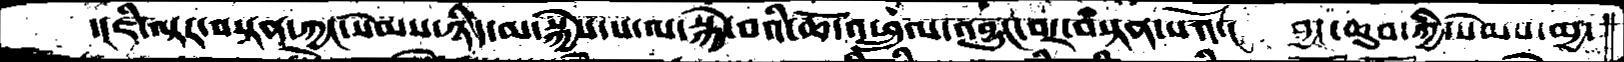་།ཇི་ལྟྱར་བསྟན་ཀྱང་སེམས་ཉིད་མ་སྐྱེས་པ་ལ་སྐྱེ་བའི་ཆོ་འཕྲུལ་འབྱུང་བར་བསྟན་པའོ་།  བྱང་ཆུབ་ཀྱི་སེམས་མྱ་
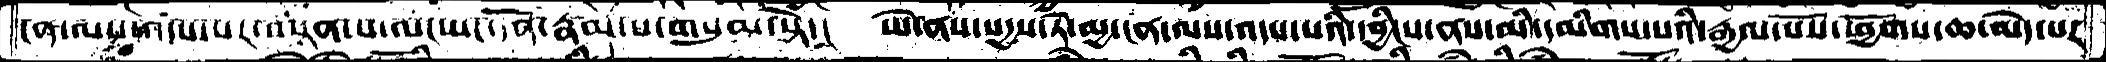ངན་ལས་འདས་པར་བསྟན་པ་ལ་ཡང་དོན་རྣམ་པ་གསུམ་སྟེ་།  ཡེ་ནས་སདྱས་ཏེ་མྱ་ངན་ལས་འདས་པའི་དབྱིངས་ནས་མི་དམིགས་པའི་རྒྱལ་པོས་ཕྱོགས་ཆ་མེད་པར་
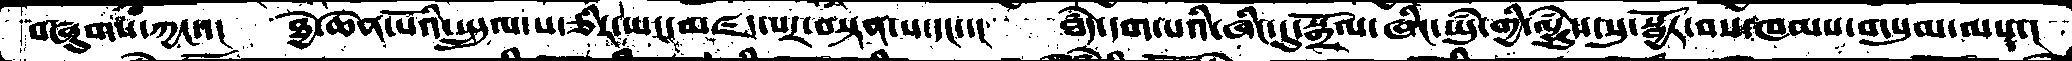བཞུགས་ཀྱང་་།  ཐྱེ་ཆེན་པོའི་སྤྲུལ་པ་ཅིར་ཡང་མཛད་པར་བསྟན་པ་དང་་།  ཐཾད་དག་པའི་ཞིང་དུ་སྒྲོལ་ཞིང་ཡུཾ་གྱི་ལྷུཾས་སུ་སྦྱོར་བས་ཁམས་གསུམ་ལས་།
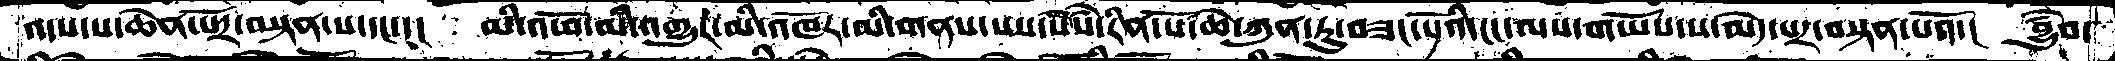འདས་པ་ཆེན་པོར་བསྟན་པ་དང་་།  མི་འཕོ་མི་འགྱུར་མི་འཁོར་མི་གནས་པས་སེཾས་རིན་པོ་ཆེ་ཀུན་ཏུ་བཟང་པོའི་ངང་ལས་གཡོས་པ་མེད་པར་བསྟན་པའོ་།  བྱུཾབ་
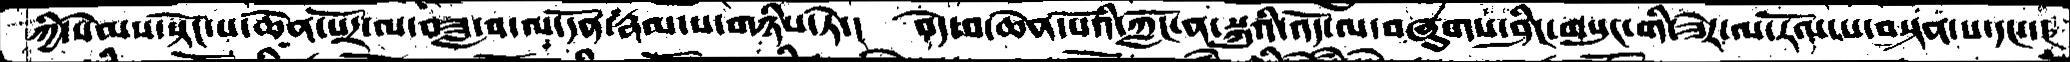ཀྱི་སེམས་སྟོང་པ་ཆེན་པོར་ལ་བཟླ་བ་ལ་དོན་རྣམ་པ་གཉིས་ཏེ་།  བདེ་བ་ཆེན་པའི་ཀློང་ན་སྐུའི་འོད་ལ་བཞུགས་ཤིང་གསུང་གི་ཟེར་ལ་རོལ་པ་བསྟན་པ་དང་་།
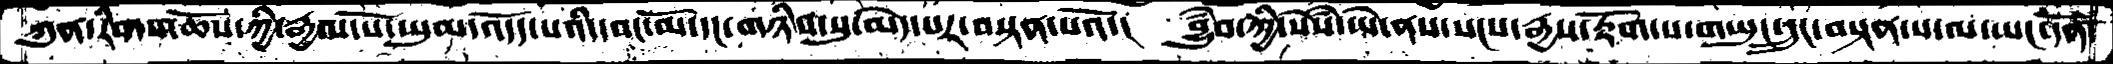ཀུན་རིགས་ཆོས་ཀྱི་རྒྱལ་པོ་ཡུམ་འདོད་པའི་དབང་མོ་དང་གཉིས་སུ་མེད་པར་བསྟན་པའོ་།  བྱུཾབ་ཀྱི་སེཾས་ཡེ་ནས་སངས་རྒྱས་རྟོག་པ་གཡུང་དྲུང་བསྟན་པ་ལ་ཡང་དོན་
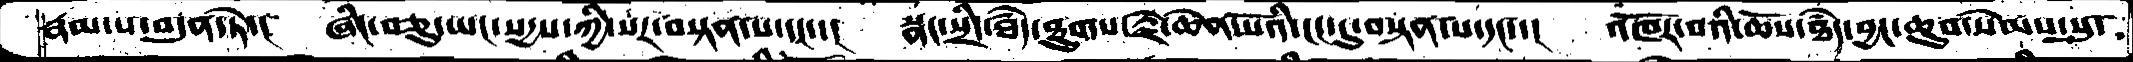རྣམ་པ་བདུན་ཏེ་།  ཞིང་བཅུ་ཡང་སདྱས་ཀྱི་སར་བསྟན་པ་དང་་།  སྣང་སྲིད་ཐཾད་ཐུགས་རྗེ་ཆེན་པོའི་ངང་དུ་བསྟན་པ་དང་་།  འཁོར་བའི་ཆོས་ཐཾད་བྱང་ཆུབ་སེམས་སུ་
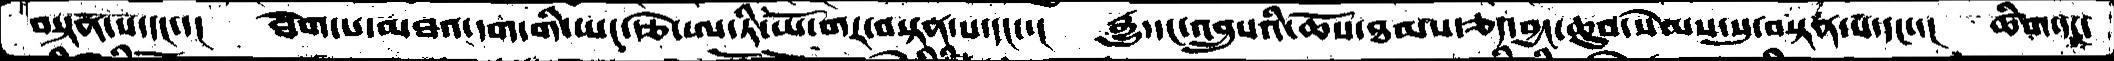བསྟན་པདང་།  ཐེག་པ་མཐའ་དག་གི་ཡང་རྩེ་ཨ་ཏི་ཡོ་གར་བསྟན་པ་དང་་།  རྒྱུ་དང་འབྲུསའི་ཆོས་ཐམས་ཅད་བྱང་ཆུབ་སེམས་སུ་བསྟན་པ་དང་་།  ཚིག་དང་
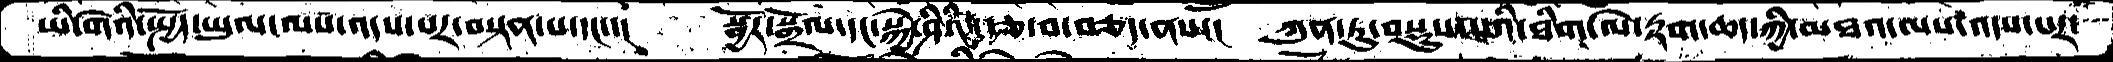ཡི་གེའི་སྤྱོད་ཡུལ་ལས་འདས་པར་བསྟན་པ་དང་་།  སྦྱོར་སྒྲོལ་དང་སྐྱེ་ཤིའི་རྩ་བ་བཅད་ནས་།  ཀུན་་ཏུ་བསྡུས་པའི་ཐིག་ལེ་རྟག་ཆད་ཀྱི་མཐའ་ལས་འདས་པར་
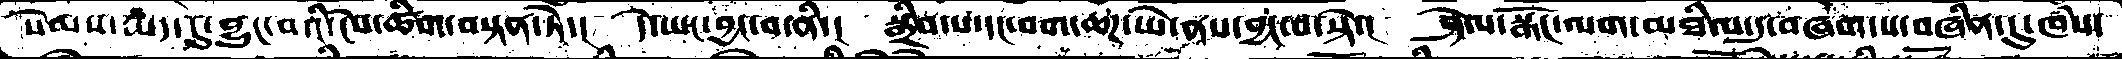སེམས་རྨད་དུ་བྱུང་བའི་ངེས་ཚིག་བསྟན་ཏེ་།  དེ་ཡང་བྱང་བ་ནི་།  སྒྲིབ་པ་དང་བག་ཆཌ་ཡེ་ནས་བྱང་བ་སྟེ་།  ཤེལ་སྒོང་ལག་མཐིལ་དུ་བཞག་པ་བཞིན་དུ་ཁཾས་
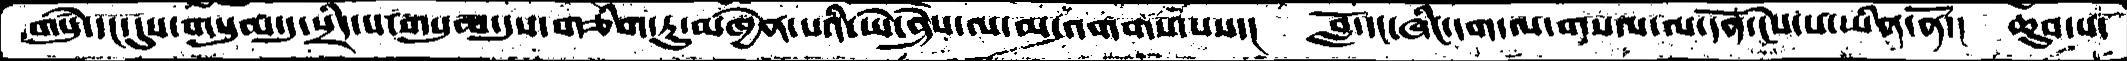གསུཾ་དང་དུས་གསུམ་དུ་སྲིད་པ་གསུམ་དུས་གཅིག་ཏུ་མཁྱེན་པའི་ཡེ་ཤེས་ལ་མ་འགགས་པས་།  བློ་དང་ཞིང་དག་ལ་གསལ་ལ་དོན་ངེས་པ་ཡིན་ནོ་། ཆུབ་པ་
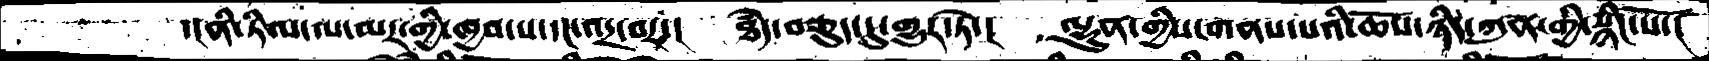་།ནི་ཏིལ་ལ་མར་གྱི་ཁྱབ་པ་དང་འདྲ་བར་།  ཐཾད་བཅུད་དུ་གྱུར་ཏེ་།  ལྷུན་གྱིས་གནས་པའི་ཆོས་ཉིད་ཀུན་གྱི་སྙིང་པོ་།
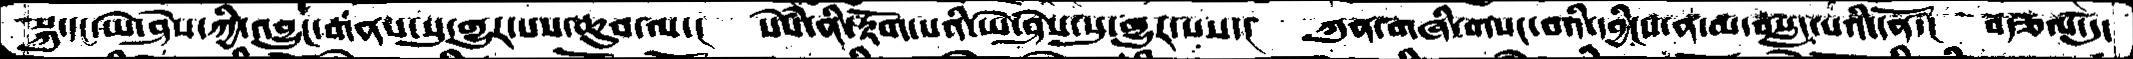སྐུ་དང་ཡེ་ཤེས་ཀྱི་འབྱུང་གནས་སུ་གྱུར་པས་ཆུབ་ལ་།  སེཾས་ནི་རྟོག་པའི་ཡེ་ཤེས་སུ་གྱུར་པས་།  ཀུན་གཞི་གསང་བའི་དབྱིངས་ན་མ་བསླད་པའི་དོན་།  བརྩལ་དུ་
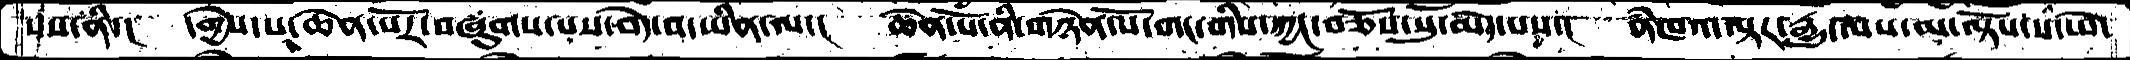པས་ནི་།  དགྱེས་པ་ཆེན་པོར་བཞུགས་པས་བདེ་བ་ཡིན་ལ་།  ཆེན་པོ་ནི་གཉེན་པོ་གང་གིས་ཀྱང་བཅོས་སུ་མེད་པས་།  ནཾཁའ་ལྟར་རྒྱུ་ལས་མ་ལྟོས་པ་ཡེ་
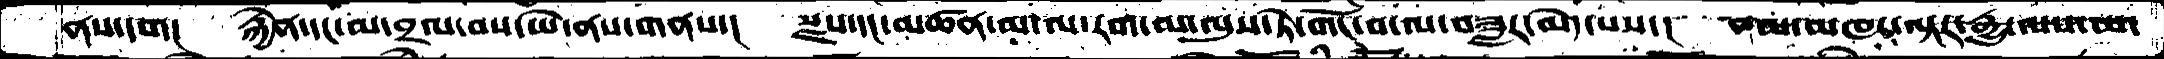ནས་དག།  རྐྱེན་དང་མ་བྲལ་བས་ཡེ་ནས་གནས་།  སྫས་དང་མཚན་མ་ལ་རག་མ་ལུས་ཏེ་གོང་བ་ལ་བཟླར་མེད་པས་།  ནམ་མཁར་ལྟར་རྒྱུ་ལས་མ་
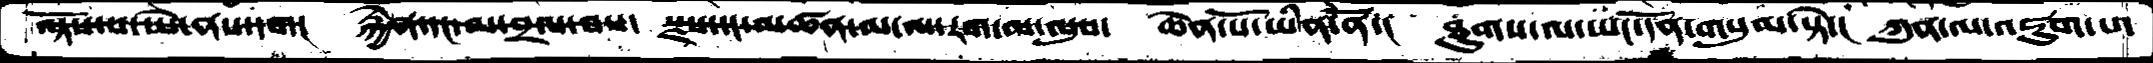ལྟོས་པ་ཡེ་ནས་དག།  རྐྱེན་དང་མ་བྲལ་བས་།  སྫས་དང་མཚན་མ་ལ་རག་མ་ལུས་།  ཆེན་པོ་ཡིན་ནོ་།  ཐུགས་ལ་ཡང་དོན་གསུམ་སྟེ་།  ཀུན་ལ་འཇུག་པ་
